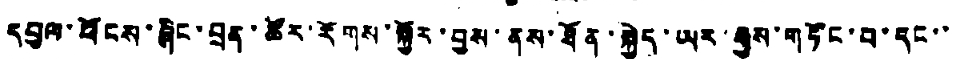དབུལ་ཕོངས་ཞིང་བྲན་ཚོར་རོགས་སྐྱོར་བྱས་ནས་ཐོན་སྐྱེད་ཡར་རྒྱས་གཏོང་བ་དང་་
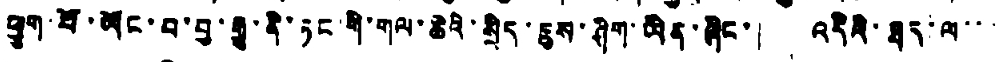ཕྱུག་པོ་ཡོང་བ་བྱ་རྒྱུ་ནི་ཏང་གི་གལ་ཆེའི་སྲིད་ཇུས་ཤིག་ཡིན་ཞིང་། འདིའི་ཐད་ལ་་་
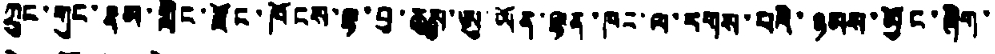ཀྲུང་གུང་རྣམ་གླིང་རྫོང་ཁོངས་ལྷ་བུ་ཆུས་ཨུ་ཡོན་ལྷན་ཁང་ལ་རགས་པའི་ཉམས་མྱོང་ཞིག་
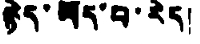རྙེད་ཡོད་པ་རེད།
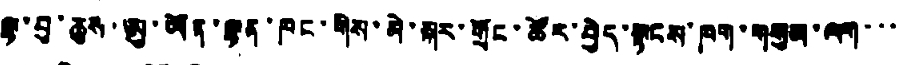ལྷ་བུ་ཆུས་ཨུ་ཡོན་ལྷན་ཁང་གིས་མེ་སྐར་གྲོང་ཚོར་བྱེད་སྟངས་ཁག་གསུམ་ལག་་་
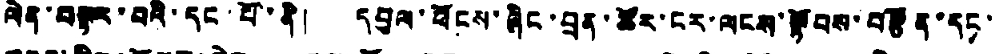ལེན་བསྟར་བའི་དང་པོ་ནི། དབུལ་ཕོངས་ཞིང་བྲན་ཚོར་ངར་ལངས་སྟོབས་བརྩོན་དང་
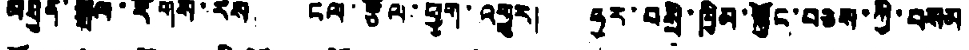མཐུན་སྒྲིལ་རོགས་རེས། ངལ་རྩོལ་ཕྱུག་འགྱུར། ཧུར་བསྲི་ཁྱིམ་སྐྱོང་བཅས་ཀྱི་བསམ
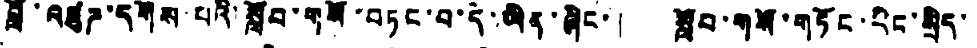བློ་འཛུཌ་དགོས་པའི་སློབ་གསོ་བཏང་བ་དེ་ཡིན་ཞིང་། སློབ་གསོ་གཏོང་རིང་སྲིད་
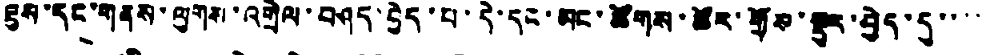ཇུས་དང་གནས་ལུགས་འགྲེལ་བཤད་བྱེད་པ་དེ་དང་མང་ཚོགས་ཚོར་གྲོས་སྡུར་བྱེད་དུ་་་་
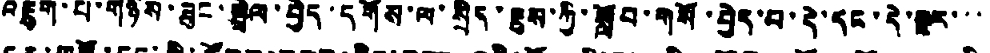འཇུག་པ་གཉིས་ཟུང་སྦྲེལ་བྱེད་དགོས་ལ་སྲིད་ཇུས་ཀྱི་སློབ་གསོ་བྱེད་པ་དེ་དང་དེ་སྔར་་་
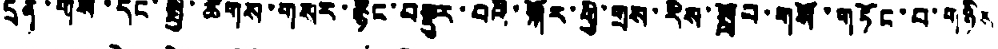དྲན་གསོ་དང་སྤྱི་ཚོགས་གསར་རྙིང་བསྡུར་བའི་སྐོར་གྱི་གྲས་རིས་སློབ་གསོ་གཏོང་བ་གཉིས
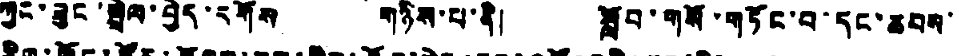ཀྱང་ཟུང་སྦྲེལ་བྱེད་དགོས གཉིས་པ་ནི། སློབ་གསོ་གཏོང་བ་དང་ཆབས་
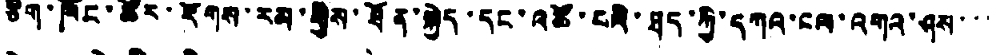ཅིག་ཁོང་ཚོར་རོགས་རམ་གྱིས་ཐོན་སྐྱེད་དང་འཚོ་བའི་ཐད་ཀྱི་དཀའ་ངལ་འགའ་ཤས་་་
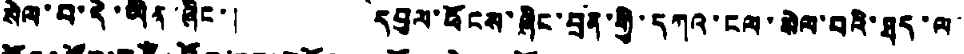སེལ་བ་དེ་ཡིན་ཞིང་། དབུལ་ཕོངས་ཞིང་བྲན་གྱི་དཀའ་ངལ་སེལ་བའི་ཐད་ལ་
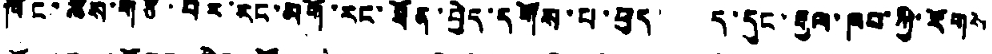ཁོང་ཚོས་གཙོ་བོར་རང་མགོ་རང་ཐོན་བྱེད་དགོས་པ་ཕུད། ད་དུང་རྒྱལ་ཁབ་ཀྱི་རོགས
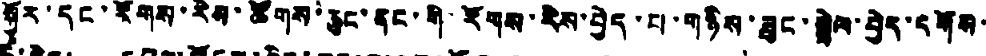སྐྱོར་དང་རོགས་རེས་ཚོགས་ཆུང་ནང་གི་རོགས་རེས་བྱེད་པ་གཉིས་ཟུང་སྦྲེལ་བྱེད་དགོས་
